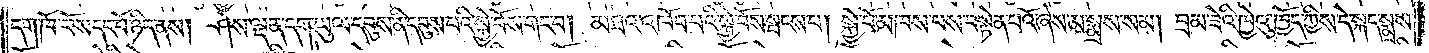དག་ཁོ་བོས་དང་པོ་ཉིད་ནས། ཤེས་ལྡན་དག་ཡུལ་དབུས་ནི་དབུས་པའི་སྐྱེ་བོས་གང་བ། མཐའ་འཁོབ་པའི་སྐྱེ་བོས་སྤངས་པ། སྐྱེ་བོ་མཁས་པས་བསྟེན་པའོ་ཞེས་མ་སྨྲས་སམ། བྲམ་ཟེའི་ཁྱེའུ་ཁྱོད་ཀྱིས་དེ་སྐད་སྨྲས་
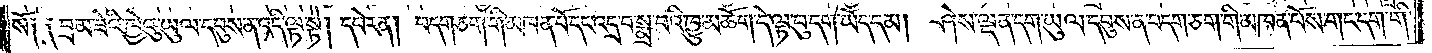སོ༑ ༑བྲམ་ཟེའི་ཁྱེའུ་ཡུལ་དབུས་ན་འདི་ལྟ་སྟེ། དཔེར་ན། བདག་ཅག་གི་མཁན་པོ་དང་འདྲ་བ་སྨྲ་བའི་ཁྱུ་མཆོག་དེ་ལྟ་བུ་དག་ཡོད་དམ། ཤེས་ལྡན་དག་ཡུལ་དབུས་ན་བདག་ཅག་གི་མཁན་པོས་གང་དག་གི་
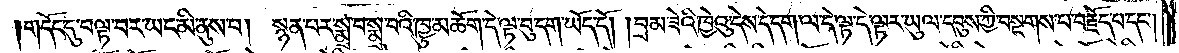།གདོང་དུ་བལྟ་བར་ཡང་མི་ནུས་པ། སྙན་བར་སྨྲ་བ་སྨྲ་བའི་ཁྱུ་མཆོག་དེ་ལྟ་བུ་དག་ཡོད་དོ། །བྲམ་ཟེའི་ཁྱེའུ་དེས་དེ་དག་ལ་དེ་ལྟ་དེ་ལྟར་ཡུལ་དབུས་ཀྱི་བསྔགས་པ་བརྗོད་པ་དང༌།
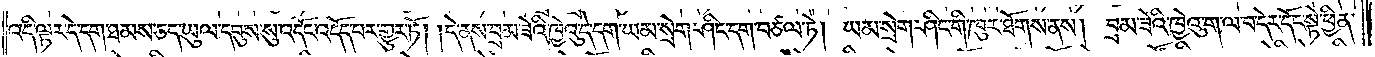འདི་ལྟར་དེ་དག་ཐམས་ཅད་ཡུལ་དབུས་སུ་འདོང་འདོད་པར་གྱུར་ཏོ། །དེ་ནས་བྲམ་ཟེའི་ཁྱེའུ་དེ་དག་ཡམ་སྲེག་ཤིང་དག་བཙལ་ཏེ། ཡམ་སྲེག་ཤིང་གི་ཁུར་ཐོགས་ནས། བྲམ་ཟེའི་ཁྱེའུ་ག་ལ་བདེར་དོང་སྟེ་ཕྱིན་
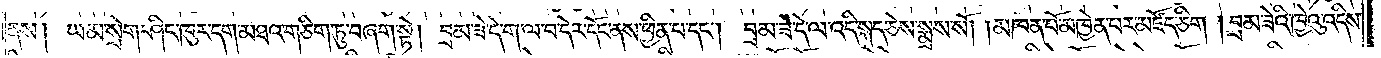ནས། ཡམ་སྲེག་ཤིང་ཁུར་དག་མཐའ་གཅིག་ཏུ་བཞག་སྟེ། བྲམ་ཟེ་དེ་ག་ལ་བ་དེར་དོང་ནས་ཕྱིན་པ་དང༌། བྲམ་ཟེ་དེ་ལ་འདི་སྐད་ཅེས་སྨྲས་སོ། །མཁན་པོ་མཁྱེན་པར་མཛོད་ཅིག །བྲམ་ཟེའི་ཁྱེའུ་འདིས་
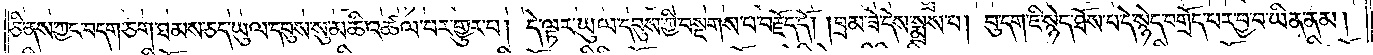ཅི་ནས་ཀྱང་བདག་ཅག་ཐམས་ཅད་ཡུལ་དབུས་སུ་མཆི་འཚལ་བར་གྱུར་བ། དེ་ལྟར་ཡུལ་དབུས་ཀྱི་བསྔགས་པ་བརྗོད་དོ། །བྲམ་ཟེ་དེས་སྨྲས་པ། བུ་དག་ཇི་སྙེད་ཐོས་པ་དེ་སྙེད་བགྲོད་པར་བྱ་བ་ཡིན་ནམ།
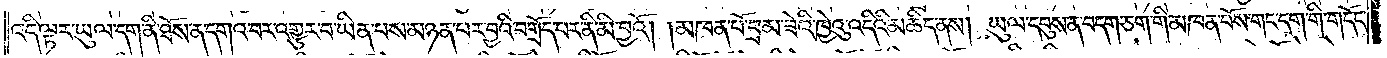འདི་ལྟར་ཡུལ་དག་ནི་ཐོས་ན་དགའ་བར་འགྱུར་བ་ཡིན་པས་མཉན་པར་བྱའི་བགྲོད་པར་ནི་མི་བྱའོ། །མཁན་པོ་བྲམ་ཟེའི་ཁྱེའུ་འདིའི་མཆིད་ནས། ཡུལ་དབུས་ན་བདག་ཅག་གི་མཁན་པོས་གང་དག་གི་གདོང་
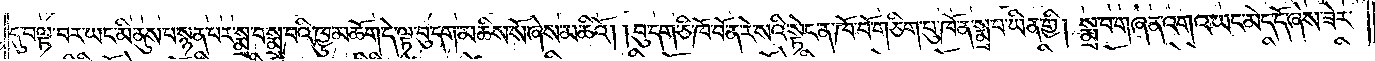དུ་བལྟ་བར་ཡང་མི་ནུས་པ་སྙན་པར་སྨྲ་བ་སྨྲ་བའི་ཁྱུ་མཆོག་དེ་ལྟ་བུ་དག་མཆིས་སོ་ཞེས་མཆིའོ། །བུ་དག་ཅི་ཁོ་བོ་ན་རེ་སའི་སྟེང་ན་ཁོ་བོ་གཅིག་པུ་ཁོ་ན་སྨྲ་བ་ཡིན་གྱི། སྨྲ་བ་གཞན་འགའ་ཡང་མེད་དོ་ཞེས་ཟེར་
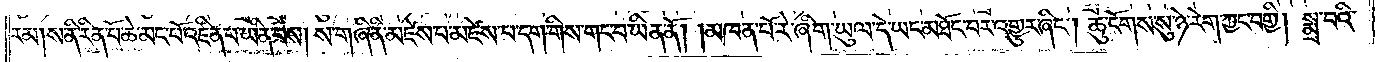རམ། ས་ནི་རིན་པོ་ཆེ་མང་པོ་འཛིན་པ་ཡིན་པས། ས་གཞི་ནི་མཛེས་པ་མཛེས་པ་དག་གིས་གང་བ་ཡིན་ནོ། །མཁན་པོ་རེ་ཞིག་ཡུལ་དེ་ཡང་མཐོང་བར་འགྱུར་ཞིང༌། ཆུ་ངོགས་སུ་ཉེ་རེག་ཀྱང་བགྱི། སྨྲ་བའི་
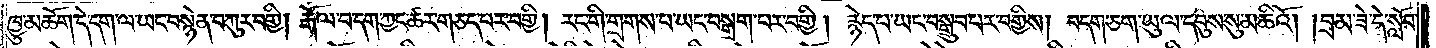ཁྱུ་མཆོག་དེ་དག་ལ་ཡང་བསྙེན་བཀུར་བགྱི། རྒོལ་བ་དག་ཀྱང་ཚར་གཅད་པར་བགྱི། རང་གི་གྲགས་པ་ཡང་བསྒྲག་པར་བགྱི། རྙེད་པ་ཡང་བསྒྲུབ་པར་བགྱིས། བདག་ཅག་ཡུལ་དབུས་སུ་མཆིའོ། །བྲམ་ཟེ་དེ་སློབ་
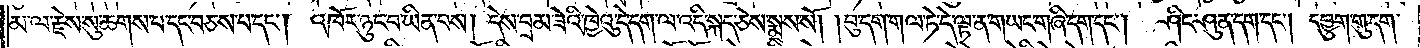མ་ལ་རྗེས་སུ་ཆགས་པ་དང་བཅས་པ་དང༌། འཁོར་ཉུང་བ་ཡིན་པས། དེས་བྲམ་ཟེའི་ཁྱེའུ་དེ་དག་ལ་འདི་སྐད་ཅེས་སྨྲས་སོ། །བུ་དག་གལ་ཏེ་དེ་ལྟ་ན་གཡང་གཞི་དག་དང༌། ཤིང་ཤུན་དག་དང༌། དབྱུག་གུ་དག་
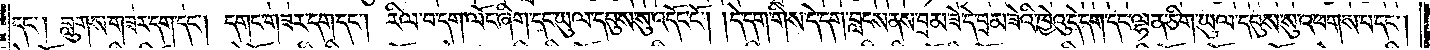དང༌། བླུགས་གཟར་དག་དང༌། དགང་གཟར་དག་དང༌། རིལ་བ་དག་ལོང་ཞིག་དང་ཡུལ་དབུས་སུ་འདོང་ངོ༌། །དེ་དག་གིས་དེ་དག་བླངས་ནས་བྲམ་ཟེ་དེ་བྲམ་ཟེའི་ཁྱེའུ་དེ་དག་དང་ལྷན་ཅིག་ཡུལ་དབུས་སུ་འཕགས་པ་དང༌།
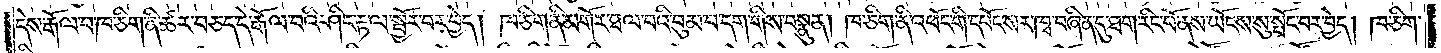དེས་རྒོལ་བ་ཁ་ཅིག་ནི་ཚར་བཅད་དེ་རྒོལ་བའི་ཤིང་རྟ་ལ་སྦྱོར་བར་བྱེད། ཁ་ཅིག་ནི་མགོར་ཐལ་བའི་བུམ་པ་དག་གིས་བསྣུན། ཁ་ཅིག་ནི་འཕོང་གི་དཔོང་སར་ཁྭ་བཞིན་དུ་ཐག་རིང་པོ་ནས་ཡོངས་སུ་སྤོང་བར་བྱེད། ཁ་ཅིག་
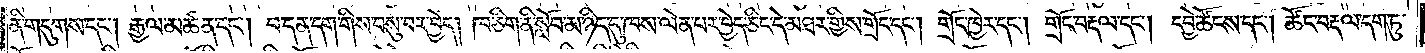ནི་གདུགས་དང༌། རྒྱལ་མཚན་དང༌། བ་དན་དག་གིས་བསུ་བར་བྱེད། ཁ་ཅིག་ནི་སློབ་མ་ཉིད་དུ་ཁས་ལེན་པར་བྱེད་ཅིང་དེ་མཐར་གྱིས་གྲོང་དང༌། གྲོང་ཁྱེར་དང༌། གྲོང་བརྡལ་དང༌། དབྱེ་ཚོངས་དང༌། ཚོང་བརྡལ་དག་ཏུ་
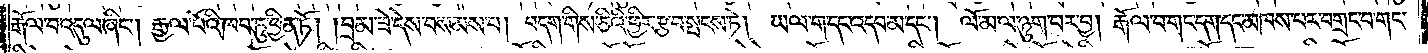རྒོལ་བ་འདུལ་ཞིང༌། རྒྱལ་པོའི་ཁབ་ཏུ་ཕྱིན་ཏོ། །བྲམ་ཟེ་དེས་བསམས་པ། བདག་གིས་ཅིའི་ཕྱིར་རྩ་བ་སྤངས་ཏེ། ཡལ་ག་དང་འདབ་མ་དང༌། ལོ་མ་ལ་ཉུག་བར་བྱ། རྒོལ་བ་གང་དག་དང་མཁས་པར་བགྲང་བ་གང་
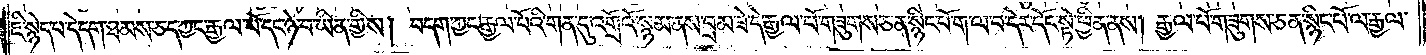ཇི་སྙེད་པ་དེ་དག་ཐམས་ཅད་ཀྱང་རྒྱལ་པོ་དང་ཉེ་བ་ཡིན་གྱིས། བདག་ཀྱང་རྒྱལ་པོའི་གན་དུ་འགྲོའོ་སྙམ་ནས་བྲམ་ཟེ་དེ་རྒྱལ་པོ་གཟུགས་ཅན་སྙིང་པོ་ག་ལ་བ་དེར་དོང་སྟེ་ཕྱིན་ནས། རྒྱལ་པོ་གཟུགས་ཅན་སྙིང་པོ་ལ་རྒྱལ་
